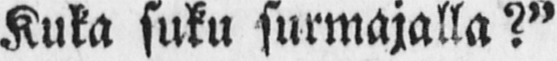Kuka suku surmajalla?"
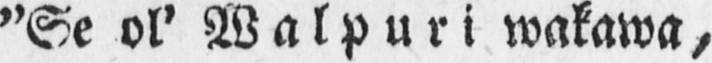"Se ol' Walpuri wakawa,
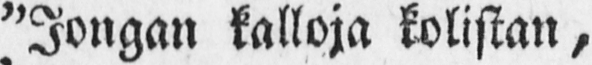"Iongan kalloja kolistan,
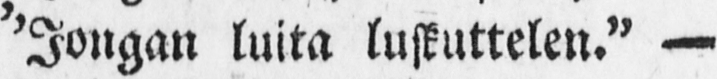"Jongan luita luskuttelen." —
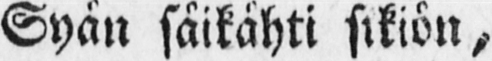Syän säikähti sikiön,
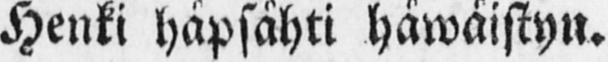Henki häpsähti häwäistyn.
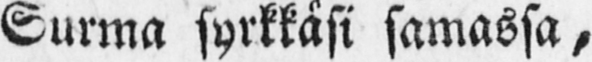Surma syrkkäsi samassa,
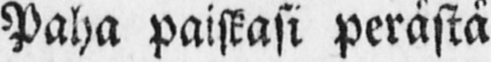Paha paiskasi perästä
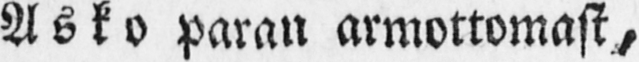Usko paran armottomast,
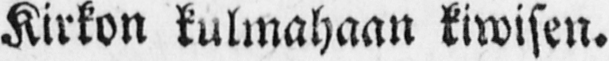Kirkon kulmahaan kiwisen.
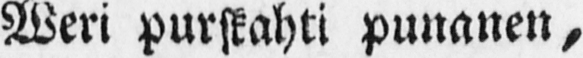Weri purskahti punanen,
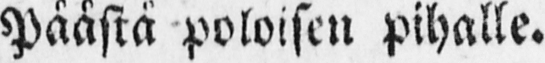Päästä poloisen pihalle.
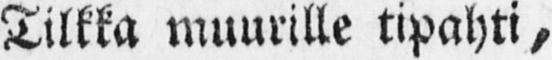Tilkka muurille tipahti,
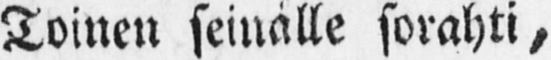Toinen seinälle sorahti,
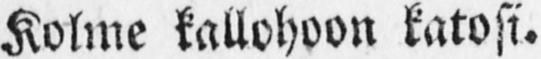Kolme kallohoon katosi.
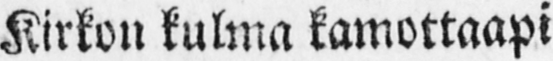Kirkon kulma kamottaapi
